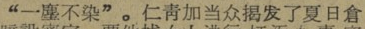“一塵不染”。仁靑加当众揭发了夏日倉
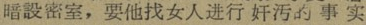暗設密室，要他找女人进行 奸污的 事 实
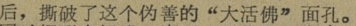后，撕破了这个伪善的“大活佛”面孔。
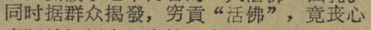同时据群众揭發，穷贡“活佛”，竟丧心
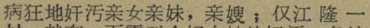病狂地奸污亲女亲妹，亲嫂；仅江 隆一
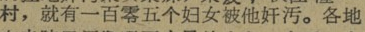村，就有一百零五个妇女被他奸污。各地
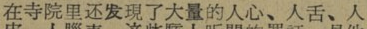在寺院里还发現了大量的人心、人舌、人
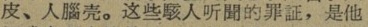皮、人腦壳。这些人駭人听闻的罪証，是他
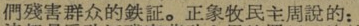們殘害群众的鉄証。正象牧民主周說的：
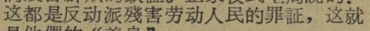这都是反动派殘害劳动人民的罪証，这就
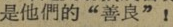是他們的“善良”！
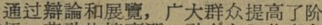通过辯論和展覽，广大群众提高了阶
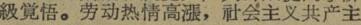級覚悟。劳动热情高漲，社会主义共产主
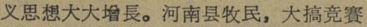义思想大大增長。河南县牧民，大搞竞赛
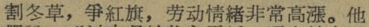割冬草，爭紅旗，劳动情绪非常高涨。他
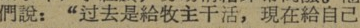們說：“过去是給牧主干活，現在給自己
